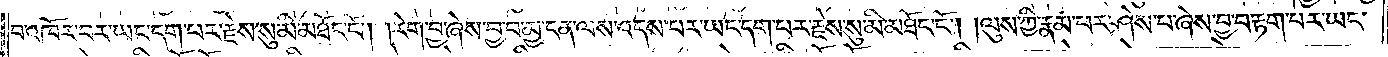བ་འཁོར་བར་ཡང་དག་པར་རྗེས་སུ་མི་མཐོང་ངོ༌། །རེག་བྱ་ཞེས་བྱ་བ་མྱ་ངན་ལས་འདས་པར་ཡང་དག་པར་རྗེས་སུ་མི་མཐོང་ངོ༌། །ལུས་ཀྱི་རྣམ་པར་ཤེས་པ་ཞེས་བྱ་བ་རྟག་པར་ཡང་
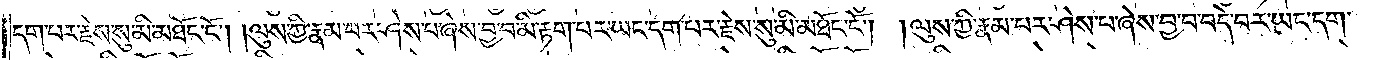དག་པར་རྗེས་སུ་མི་མཐོང་ངོ༌། །ལུས་ཀྱི་རྣམ་པར་ཤེས་པ་ཞེས་བྱ་བ་མི་རྟག་པར་ཡང་དག་པར་རྗེས་སུ་མི་མཐོང་ངོ༌། །ལུས་ཀྱི་རྣམ་པར་ཤེས་པ་ཞེས་བྱ་བ་བདེ་བར་ཡང་དག་
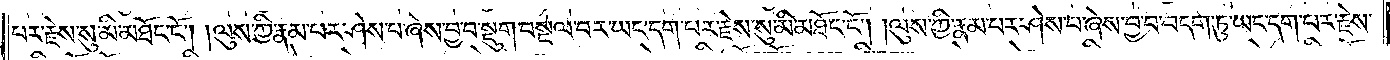པར་རྗེས་སུ་མི་མཐོང་ངོ༌། །ལུས་ཀྱི་རྣམ་པར་ཤེས་པ་ཞེས་བྱ་བ་སྡུག་བསྔལ་བར་ཡང་དག་པར་རྗེས་སུ་མི་མཐོང་ངོ༌། །ལུས་ཀྱི་རྣམ་པར་ཤེས་པ་ཞེས་བྱ་བ་བདག་ཏུ་ཡང་དག་པར་རྗེས་
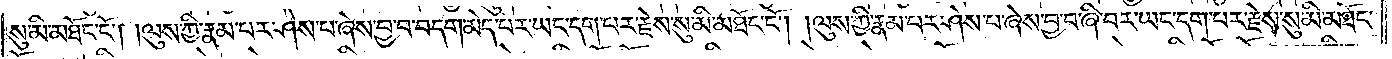སུ་མི་མཐོང་ངོ༌། །ལུས་ཀྱི་རྣམ་པར་ཤེས་པ་ཞེས་བྱ་བ་བདག་མེད་པར་ཡང་དག་པར་རྗེས་སུ་མི་མཐོང་ངོ༌། །ལུས་ཀྱི་རྣམ་པར་ཤེས་པ་ཞེས་བྱ་བ་ཞི་བར་ཡང་དག་པར་རྗེས་སུ་མི་མཐོང་
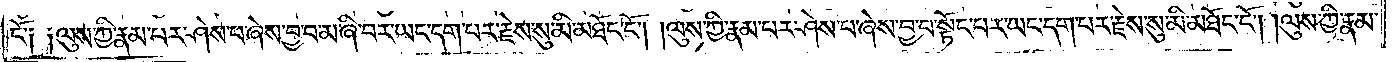ངོ༑ ༑ལུས་ཀྱི་རྣམ་པར་ཤེས་པ་ཞེས་བྱ་བ་མ་ཞི་བར་ཡང་དག་པར་རྗེས་སུ་མི་མཐོང་ངོ༌། །ལུས་ཀྱི་རྣམ་པར་ཤེས་པ་ཞེས་བྱ་བ་སྟོང་པར་ཡང་དག་པར་རྗེས་སུ་མི་མཐོང་ངོ༌། །ལུས་ཀྱི་རྣམ་
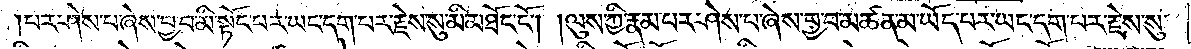པར་ཤེས་པ་ཞེས་བྱ་བ་མི་སྟོང་པར་ཡང་དག་པར་རྗེས་སུ་མི་མཐོང་ངོ༌། །ལུས་ཀྱི་རྣམ་པར་ཤེས་པ་ཞེས་བྱ་བ་མཚན་མ་ཡོད་པར་ཡང་དག་པར་རྗེས་སུ་
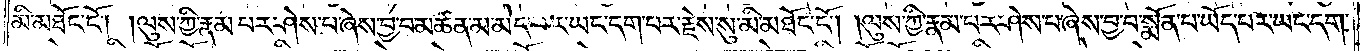མི་མཐོང་ངོ༌། །ལུས་ཀྱི་རྣམ་པར་ཤེས་པ་ཞེས་བྱ་བ་མཚན་མ་མེད་པར་ཡང་དག་པར་རྗེས་སུ་མི་མཐོང་ངོ༌། །ལུས་ཀྱི་རྣམ་པར་ཤེས་པ་ཞེས་བྱ་བ་སྨོན་པ་ཡོད་པར་ཡང་དག་
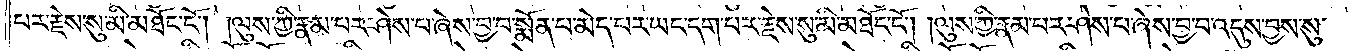པར་རྗེས་སུ་མི་མཐོང་ངོ༌། །ལུས་ཀྱི་རྣམ་པར་ཤེས་པ་ཞེས་བྱ་བ་སྨོན་པ་མེད་པར་ཡང་དག་པར་རྗེས་སུ་མི་མཐོང་ངོ༌། །ལུས་ཀྱི་རྣམ་པར་ཤེས་པ་ཞེས་བྱ་བ་འདུས་བྱས་སུ་
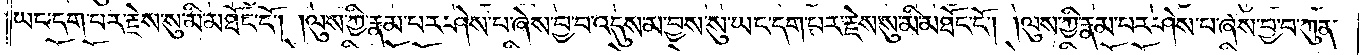ཡང་དག་པར་རྗེས་སུ་མི་མཐོང་ངོ༌། །ལུས་ཀྱི་རྣམ་པར་ཤེས་པ་ཞེས་བྱ་བ་འདུས་མ་བྱས་སུ་ཡང་དག་པར་རྗེས་སུ་མི་མཐོང་ངོ༌། །ལུས་ཀྱི་རྣམ་པར་ཤེས་པ་ཞེས་བྱ་བ་ཀུན་
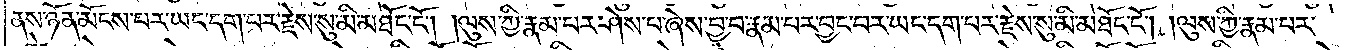ནས་ཉོན་མོངས་པར་ཡང་དག་པར་རྗེས་སུ་མི་མཐོང་ངོ༌། །ལུས་ཀྱི་རྣམ་པར་ཤེས་པ་ཞེས་བྱ་བ་རྣམ་པར་བྱང་བར་ཡང་དག་པར་རྗེས་སུ་མི་མཐོང་ངོ༌། །ལུས་ཀྱི་རྣམ་པར་
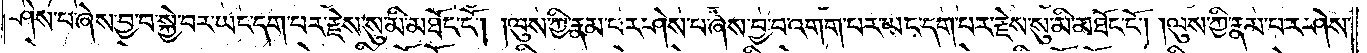ཤེས་པ་ཞེས་བྱ་བ་སྐྱེ་བར་ཡང་དག་པར་རྗེས་སུ་མི་མཐོང་ངོ༌། །ལུས་ཀྱི་རྣམ་པར་ཤེས་པ་ཞེས་བྱ་བ་འགག་པར་ཡང་དག་པར་རྗེས་སུ་མི་མཐོང་ངོ༌། །ལུས་ཀྱི་རྣམ་པར་ཤེས་
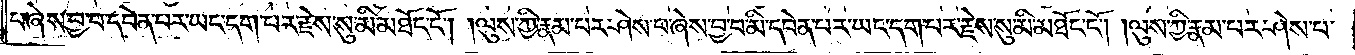པ་ཞེས་བྱ་བ་དབེན་པར་ཡང་དག་པར་རྗེས་སུ་མི་མཐོང་ངོ༌། །ལུས་ཀྱི་རྣམ་པར་ཤེས་པ་ཞེས་བྱ་བ་མི་དབེན་པར་ཡང་དག་པར་རྗེས་སུ་མི་མཐོང་ངོ༌། །ལུས་ཀྱི་རྣམ་པར་ཤེས་པ་
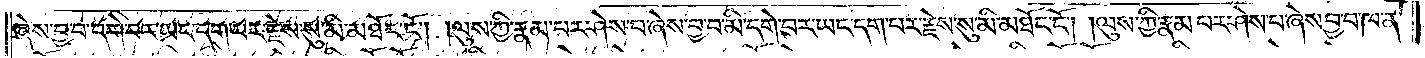ཞེས་བྱ་བ་དགེ་བར་ཡང་དག་པར་རྗེས་སུ་མི་མཐོང་ངོ༌། །ལུས་ཀྱི་རྣམ་པར་ཤེས་པ་ཞེས་བྱ་བ་མི་དགེ་བར་ཡང་དག་པར་རྗེས་སུ་མི་མཐོང་ངོ༌། །ལུས་ཀྱི་རྣམ་པར་ཤེས་པ་ཞེས་བྱ་བ་ཁ་ན་
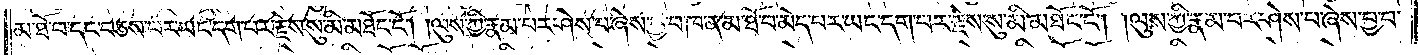མ་ཐོ་བ་དང་བཅས་པར་ཡང་དག་པར་རྗེས་སུ་མི་མཐོང་ངོ༌། །ལུས་ཀྱི་རྣམ་པར་ཤེས་པ་ཞེས་བྱ་བ་ཁ་ན་མ་ཐོ་བ་མེད་པར་ཡང་དག་པར་རྗེས་སུ་མི་མཐོང་ངོ༌། །ལུས་ཀྱི་རྣམ་པར་ཤེས་པ་ཞེས་བྱ་བ་
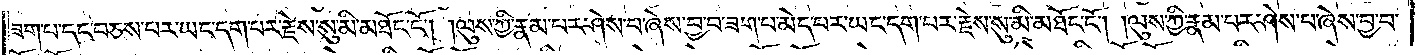ཟག་པ་དང་བཅས་པར་ཡང་དག་པར་རྗེས་སུ་མི་མཐོང་ངོ༌། །ལུས་ཀྱི་རྣམ་པར་ཤེས་པ་ཞེས་བྱ་བ་ཟག་པ་མེད་པར་ཡང་དག་པར་རྗེས་སུ་མི་མཐོང་ངོ༌། །ལུས་ཀྱི་རྣམ་པར་ཤེས་པ་ཞེས་བྱ་བ་
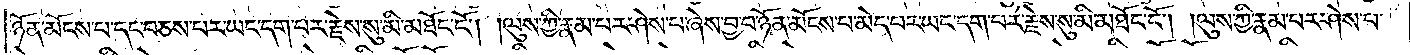ཉོན་མོངས་པ་དང་བཅས་པར་ཡང་དག་པར་རྗེས་སུ་མི་མཐོང་ངོ༌། །ལུས་ཀྱི་རྣམ་པར་ཤེས་པ་ཞེས་བྱ་བ་ཉོན་མོངས་པ་མེད་པར་ཡང་དག་པར་རྗེས་སུ་མི་མཐོང་ངོ༌། །ལུས་ཀྱི་རྣམ་པར་ཤེས་པ་
